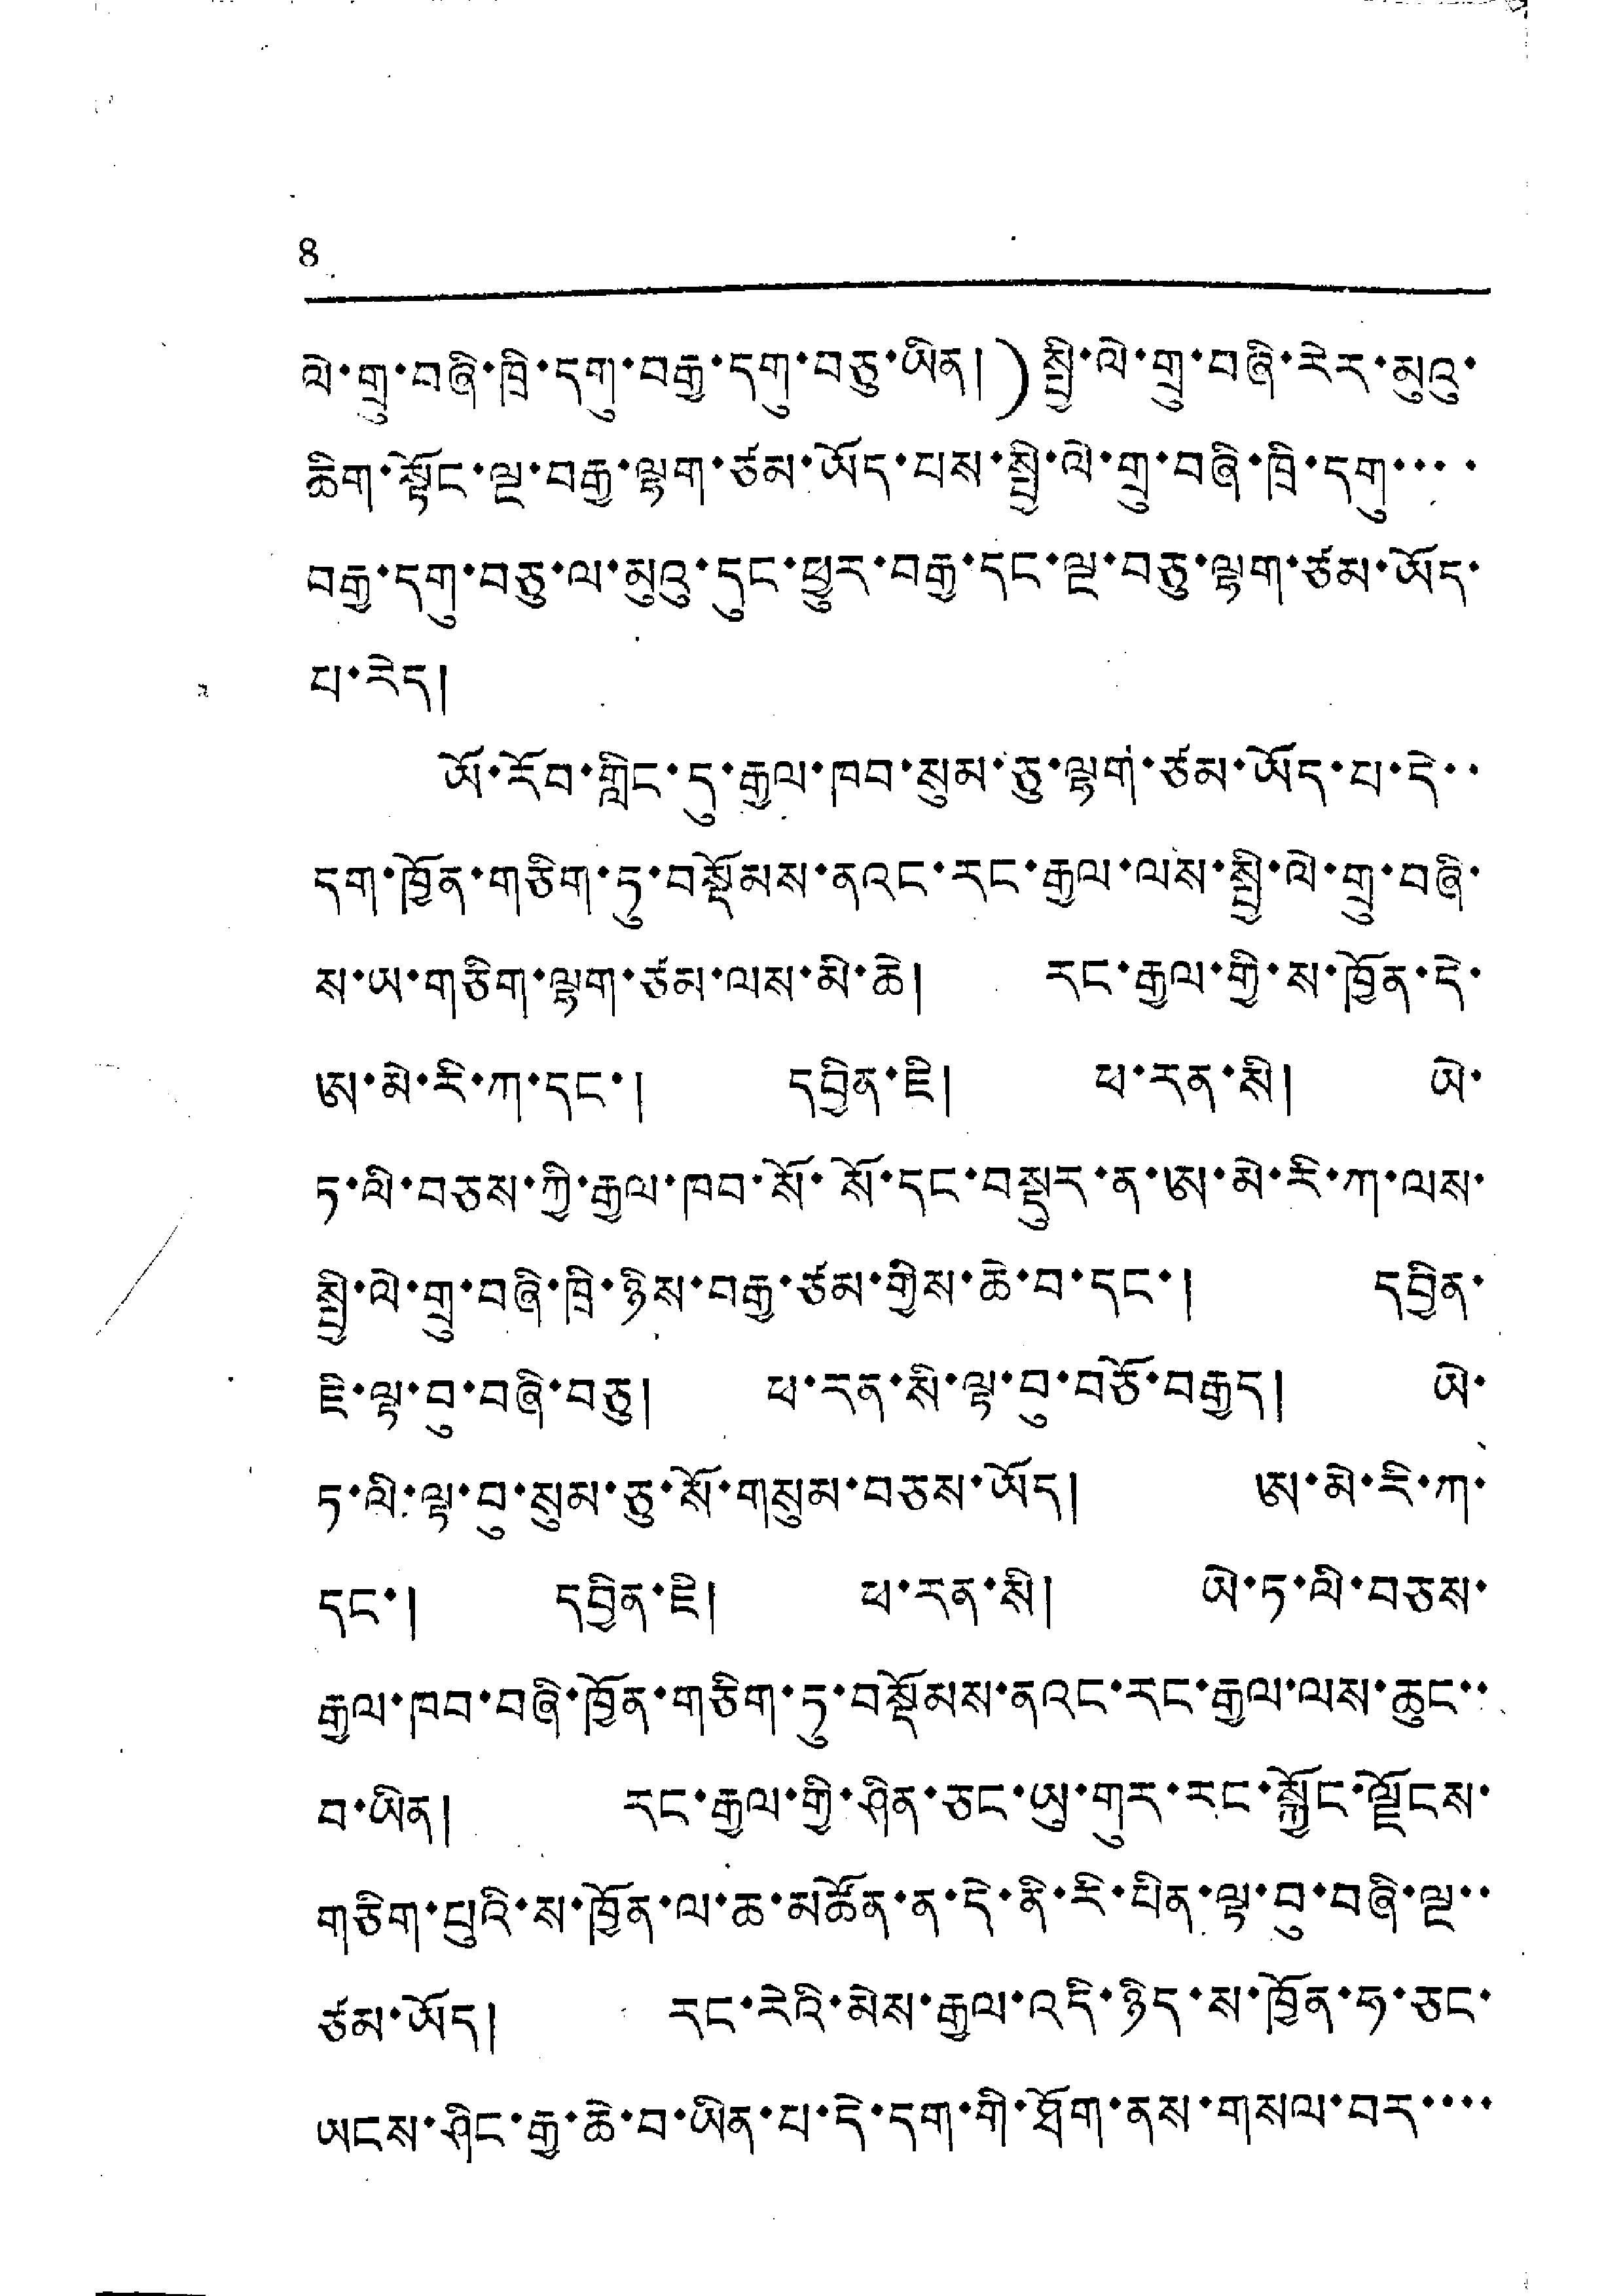8
ལེ་གྲུ་བཞི་ཁྲི་དགུ་བརྒྱ་དགུ་བཅུ་ཡིན།)སྤྱི་ལེ་གྲུ་བཞི་རེར་མུའུ་
ཆིག་སྟོང་ལྔ་བརྒྱ་ལྷག་ཙམ་ཡོད་པས་སྤྱི་ལེ་གྲུ་བཞི་ཁྲི་དགུ་་་་
བརྒྱ་དགུ་བཅུ་ལ་མུའུ་དུང་ཕྱུར་བརྒྱ་དང་ལྔ་བཅུ་ལྷག་ཙམ་ཡོད་
པ་རེད།
ཡོ་རོབ་གླིང་དུ་རྒྱལ་ཁབ་སུམ་ཅུ་ལྷག་ཙམ་ཡོད་པ་དེ་་
དག་ཁྱོན་གཅིག་ཏུ་བསྡོམས་ནའང་རང་རྒྱལ་ལས་སྤྱི་ལེ་གྲུ་བཞི་
ས་ཡ་གཅིག་ལྷག་ཙམ་ལས་མི་ཆེ། རང་རྒྱལ་གྱི་ས་ཁྱོན་དེ་
ཨ་མེ་རི་ཀ་དང་། དབྱིན་ཇི། ཕ་རན་སི། ཡེ་
ཏ་ལི་བཅས་ཀྱི་རྒྱལ་ཁབ་སོ་སོ་དང་བསྡུར་ན་ཨ་མེ་རི་ཀ་ལས་
སྤྱི་ལེ་གྲུ་བཞི་ཁྲི་ཉིས་བརྒྱ་ཙམ་གྱིས་ཆེ་བ་དང་། དབྱིན་
ཇི་ལྟ་བུ་བཞི་བཅུ། ཕ་རན་སི་ལྟ་བུ་བཅོ་བརྒྱད། ཡེ་
ཏ་ལི་ལྟ་བུ་སུམ་ཅུ་སོ་གསུམ་བཅས་ཡོད། ཨ་མེ་རི་ཀ་
དང་། དབྱིན་ཇི། ཕ་རན་སི། ཡེ་ཏ་ལི་བཅས་
རྒྱལ་ཁབ་བཞི་ཁྱོན་གཅིག་ཏུ་བསྡོམས་ནའང་རང་རྒྱལ་ལས་ཆུང་་
བ་ཡིན། རང་རྒྱལ་གྱི་ཤིན་ཅང་ཡུ་གུར་རང་སྐྱོང་ལྗོངས་
གཅིག་པུའི་ས་ཁྱོན་ལ་ཆ་མཚོན་ན་དེ་ནི་རི་པིན་ལྟ་བུ་བཞི་ལྔ་་
ཙམ་ཡོད། རང་རེའི་མེས་རྒྱལ་འདི་ཉིད་ས་ཁྱོན་ཧ་ཅང་
ཡངས་ཤིང་རྒྱ་ཆེ་བ་ཡིན་པ་དེ་དག་གི་ཐོག་ནས་གསལ་བར་་་་
